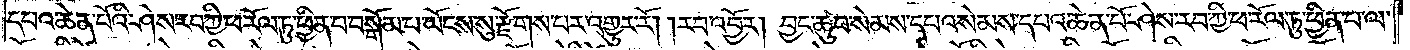དཔའ་ཆེན་པོའི་ཤེས་རབ་ཀྱི་ཕ་རོལ་ཏུ་ཕྱིན་པ་བསྒོམ་པ་ཡོངས་སུ་རྫོགས་པར་འགྱུར་རོ། །རབ་འབྱོར། བྱང་ཆུབ་སེམས་དཔའ་སེམས་དཔའ་ཆེན་པོ་ཤེས་རབ་ཀྱི་ཕ་རོལ་ཏུ་ཕྱིན་པ་ལ་
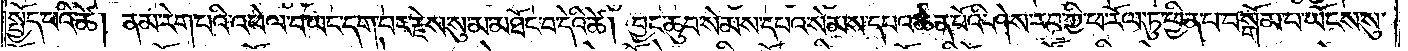སྤྱོད་པའི་ཚེ། ནམ་རེག་པའི་འཕེལ་བ་ཡང་དག་པར་རྗེས་སུ་མ་མཐོང་བ་དེའི་ཚེ། བྱང་ཆུབ་སེམས་དཔའ་སེམས་དཔའ་ཆེན་པོའི་ཤེས་རབ་ཀྱི་ཕ་རོལ་ཏུ་ཕྱིན་པ་བསྒོམ་པ་ཡོངས་སུ་
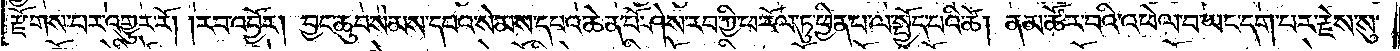རྫོགས་པར་འགྱུར་རོ། །རབ་འབྱོར། བྱང་ཆུབ་སེམས་དཔའ་སེམས་དཔའ་ཆེན་པོ་ཤེས་རབ་ཀྱི་ཕ་རོལ་ཏུ་ཕྱིན་པ་ལ་སྤྱོད་པའི་ཚེ། ནམ་ཚོར་བའི་འཕེལ་བ་ཡང་དག་པར་རྗེས་སུ་
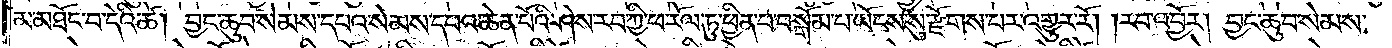མ་མཐོང་བ་དེའི་ཚེ། བྱང་ཆུབ་སེམས་དཔའ་སེམས་དཔའ་ཆེན་པོའི་ཤེས་རབ་ཀྱི་ཕ་རོལ་ཏུ་ཕྱིན་པ་བསྒོམ་པ་ཡོངས་སུ་རྫོགས་པར་འགྱུར་རོ། །རབ་འབྱོར། བྱང་ཆུབ་སེམས་
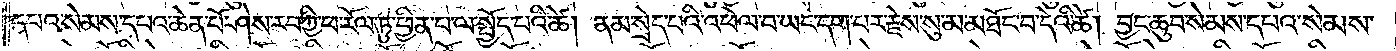དཔའ་སེམས་དཔའ་ཆེན་པོ་ཤེས་རབ་ཀྱི་ཕ་རོལ་ཏུ་ཕྱིན་པ་ལ་སྤྱོད་པའི་ཚེ། ནམ་སྲེད་པའི་འཕེལ་བ་ཡང་དག་པར་རྗེས་སུ་མ་མཐོང་བ་དེའི་ཚེ། བྱང་ཆུབ་སེམས་དཔའ་སེམས་
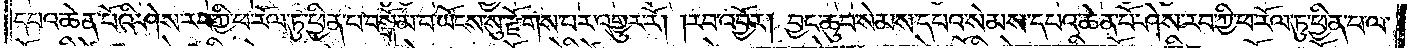དཔའ་ཆེན་པའི་ཤེས་རབ་ཀྱི་ཕ་རོལ་ཏུ་ཕྱིན་པ་བསྒོམ་པ་ཡོངས་སུ་རྫོགས་པར་འགྱུར་རོ། །རབ་འབྱོར། བྱང་ཆུབ་སེམས་དཔའ་སེམས་དཔའ་ཆེན་པོ་ཤེས་རབ་ཀྱི་ཕ་རོལ་ཏུ་ཕྱིན་པ་ལ་
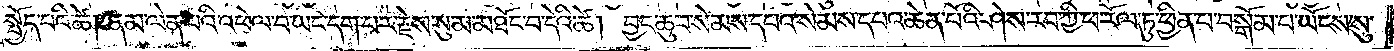སྤྱོད་པའི་ཚེ། ནམ་ལེན་པའི་འཕེལ་བ་ཡང་དག་པར་རྗེས་སུ་མ་མཐོང་བ་དེའི་ཚེ། བྱང་ཆུབ་སེམས་དཔའ་སེམས་དཔའ་ཆེན་པོའི་ཤེས་རབ་ཀྱི་ཕ་རོལ་ཏུ་ཕྱིན་པ་བསྒོམ་པ་ཡོངས་སུ་
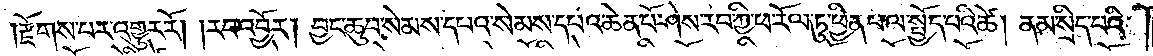རྫོགས་པར་འགྱུར་རོ། །རབ་འབྱོར། བྱང་ཆུབ་སེམས་དཔའ་སེམས་དཔའ་ཆེན་པོ་ཤེས་རབ་ཀྱི་ཕ་རོལ་ཏུ་ཕྱིན་པ་ལ་སྤྱོད་པའི་ཚེ། ནམ་སྲིད་པའི་
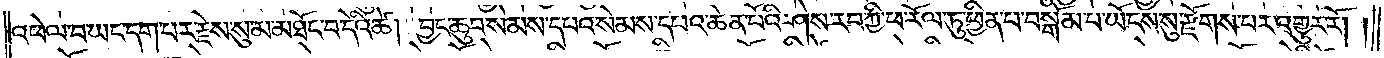འཕེལ་བ་ཡང་དག་པར་རྗེས་སུ་མ་མཐོང་བ་དེའི་ཚེ། བྱང་ཆུབ་སེམས་དཔའ་སེམས་དཔའ་ཆེན་པོའི་ཤེས་རབ་ཀྱི་ཕ་རོལ་ཏུ་ཕྱིན་པ་བསྒོམ་པ་ཡོངས་སུ་རྫོགས་པར་འགྱུར་རོ། །
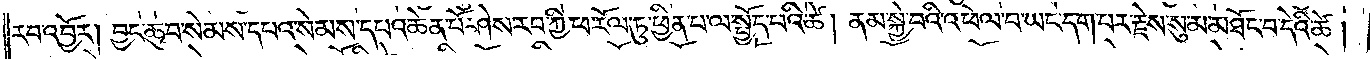རབ་འབྱོར། བྱང་ཆུབ་སེམས་དཔའ་སེམས་དཔའ་ཆེན་པོ་ཤེས་རབ་ཀྱི་ཕ་རོལ་ཏུ་ཕྱིན་པ་ལ་སྤྱོད་པའི་ཚེ། ནམ་སྐྱེ་བའི་འཕེལ་བ་ཡང་དག་པར་རྗེས་སུ་མ་མཐོང་བ་དེའི་ཚེ།
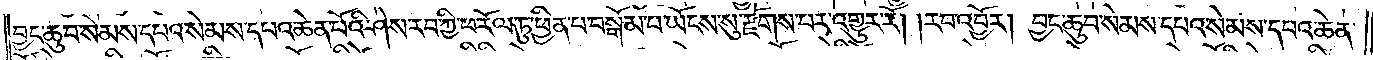བྱང་ཆུབ་སེམས་དཔའ་སེམས་དཔའ་ཆེན་པོའི་ཤེས་རབ་ཀྱི་ཕ་རོལ་ཏུ་ཕྱིན་པ་བསྒོམ་པ་ཡོངས་སུ་རྫོགས་པར་འགྱུར་རོ། །རབ་འབྱོར། བྱང་ཆུབ་སེམས་དཔའ་སེམས་དཔའ་ཆེན་
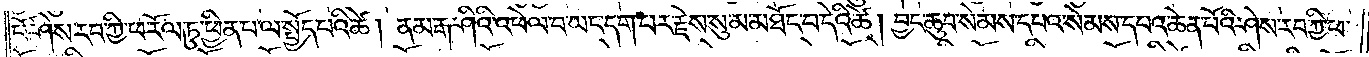པོ་ཤེས་རབ་ཀྱི་ཕ་རོལ་ཏུ་ཕྱིན་པ་ལ་སྤྱོད་པའི་ཚེ། ནམ་རྒ་ཤིའི་འཕེལ་བ་ཡང་དག་པར་རྗེས་སུ་མ་མཐོང་བ་དེའི་ཚེ། བྱང་ཆུབ་སེམས་དཔའ་སེམས་དཔའ་ཆེན་པོའི་ཤེས་རབ་ཀྱི་ཕ་
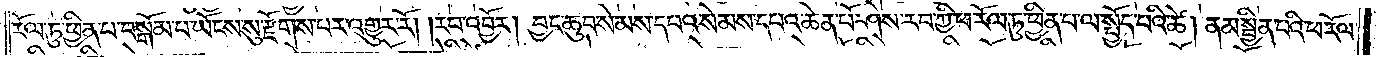རོལ་ཏུ་ཕྱིན་པ་བསྒོམ་པ་ཡོངས་སུ་རྫོགས་པར་འགྱུར་རོ། །རབ་འབྱོར། བྱང་ཆུབ་སེམས་དཔའ་སེམས་དཔའ་ཆེན་པོ་ཤེས་རབ་ཀྱི་ཕ་རོལ་ཏུ་ཕྱིན་པ་ལ་སྤྱོད་པའི་ཚེ། ནམ་སྦྱིན་པའི་ཕ་རོལ་
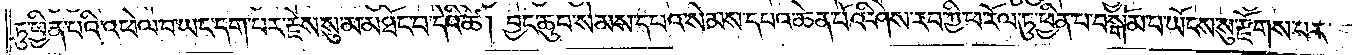ཏུ་ཕྱིན་པའི་འཕེལ་བ་ཡང་དག་པར་རྗེས་སུ་མ་མཐོང་བ་དེའི་ཚེ། བྱང་ཆུབ་སེམས་དཔའ་སེམས་དཔའ་ཆེན་པོའི་ཤེས་རབ་ཀྱི་ཕ་རོལ་ཏུ་ཕྱིན་པ་བསྒོམ་པ་ཡོངས་སུ་རྫོགས་པར་
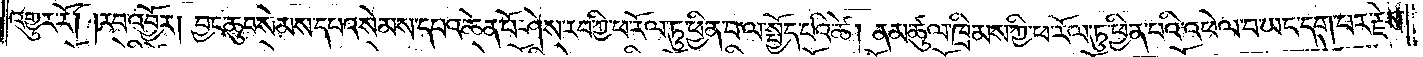འགྱུར་རོ། །རབ་འབྱོར། བྱང་ཆུབ་སེམས་དཔའ་སེམས་དཔའ་ཆེན་པོ་ཤེས་རབ་ཀྱི་ཕ་རོལ་ཏུ་ཕྱིན་པ་ལ་སྤྱོད་པའི་ཚེ། ནམ་ཚུལ་ཁྲིམས་ཀྱི་ཕ་རོལ་ཏུ་ཕྱིན་པའི་འཕེལ་བ་ཡང་དག་པར་རྗེས་
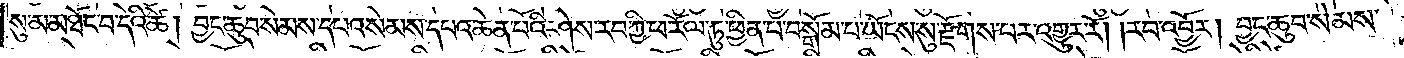སུ་མ་མཐོང་བ་དེའི་ཚེ། བྱང་ཆུབ་སེམས་དཔའ་སེམས་དཔའ་ཆེན་པོའི་ཤེས་རབ་ཀྱི་ཕ་རོལ་ཏུ་ཕྱིན་པ་བསྒོམ་པ་ཡོངས་སུ་རྫོགས་པར་འགྱུར་རོ། །རབ་འབྱོར། བྱང་ཆུབ་སེམས་
